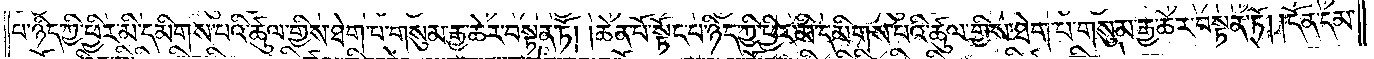པ་ཉིད་ཀྱི་ཕྱིར་མི་དམིགས་པའི་ཚུལ་གྱིས་ཐེག་པ་གསུམ་རྒྱ་ཆེར་བསྟན་ཏོ། །ཆེན་པོ་སྟོང་པ་ཉིད་ཀྱི་ཕྱིར་མི་དམིགས་པའི་ཚུལ་གྱིས་ཐེག་པ་གསུམ་རྒྱ་ཆེར་བསྟན་ཏོ། །དོན་དམ་
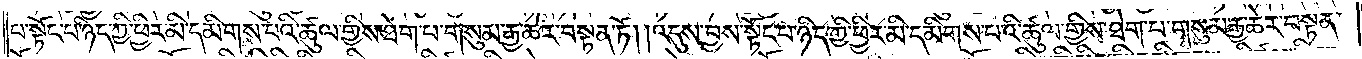པ་སྟོང་པ་ཉིད་ཀྱི་ཕྱིར་མི་དམིགས་པའི་ཚུལ་གྱིས་ཐེག་པ་གསུམ་རྒྱ་ཆེར་བསྟན་ཏོ། །འདུས་བྱས་སྟོང་པ་ཉིད་ཀྱི་ཕྱིར་མི་དམིགས་པའི་ཚུལ་གྱིས་ཐེག་པ་གསུམ་རྒྱ་ཆེར་བསྟན་
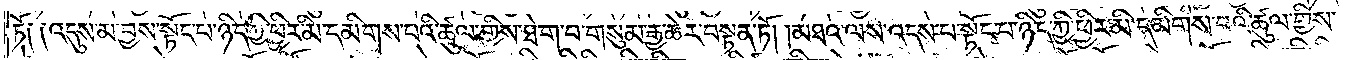ཏོ༑ ༑འདུས་མ་བྱས་སྟོང་པ་ཉིད་ཀྱི་ཕྱིར་མི་དམིགས་པའི་ཚུལ་གྱིས་ཐེག་པ་གསུམ་རྒྱ་ཆེར་བསྟན་ཏོ། །མཐའ་ལས་འདས་པ་སྟོང་པ་ཉིད་ཀྱི་ཕྱིར་མི་དམིགས་པའི་ཚུལ་གྱིས་
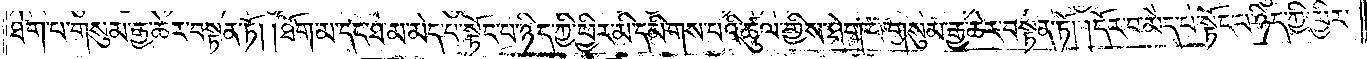ཐེག་པ་གསུམ་རྒྱ་ཆེར་བསྟན་ཏོ། །ཐོག་མ་དང་ཐ་མ་མེད་པ་སྟོང་པ་ཉིད་ཀྱི་ཕྱིར་མི་དམིགས་པའི་ཚུལ་གྱིས་ཐེག་པ་གསུམ་རྒྱ་ཆེར་བསྟན་ཏོ། །དོར་བ་མེད་པ་སྟོང་པ་ཉིད་ཀྱི་ཕྱིར་
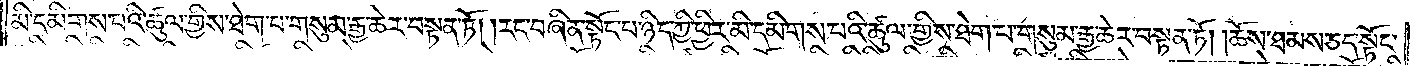མི་དམིགས་པའི་ཚུལ་གྱིས་ཐེག་པ་གསུམ་རྒྱ་ཆེར་བསྟན་ཏོ། །རང་བཞིན་སྟོང་པ་ཉིད་ཀྱི་ཕྱིར་མི་དམིགས་པའི་ཚུལ་གྱིས་ཐེག་པ་གསུམ་རྒྱ་ཆེར་བསྟན་ཏོ། །ཆོས་ཐམས་ཅད་སྟོང་
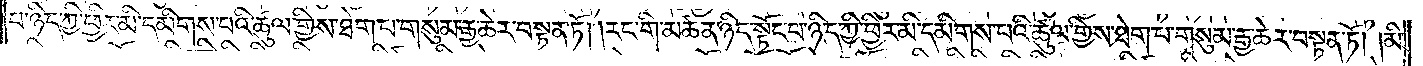པ་ཉིད་ཀྱི་ཕྱིར་མི་དམིགས་པའི་ཚུལ་གྱིས་ཐེག་པ་གསུམ་རྒྱ་ཆེར་བསྟན་ཏོ། །རང་གི་མཚན་ཉིད་སྟོང་པ་ཉིད་ཀྱི་ཕྱིར་མི་དམིགས་པའི་ཚུལ་གྱིས་ཐེག་པ་གསུམ་རྒྱ་ཆེར་བསྟན་ཏོ། །མི་
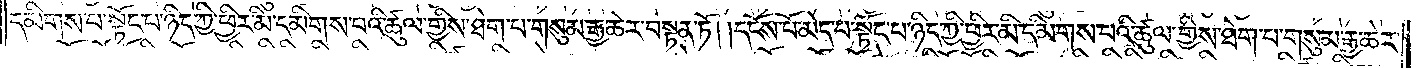དམིགས་པ་སྟོང་པ་ཉིད་ཀྱི་ཕྱིར་མི་དམིགས་པའི་ཚུལ་གྱིས་ཐེག་པ་གསུམ་རྒྱ་ཆེར་བསྟན་ཏོ། །དངོས་པོ་མེད་པ་སྟོང་པ་ཉིད་ཀྱི་ཕྱིར་མི་དམིགས་པའི་ཚུལ་གྱིས་ཐེག་པ་གསུམ་རྒྱ་ཆེར་
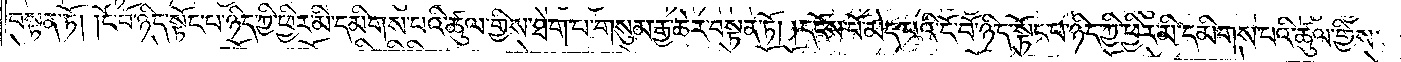བསྟན་ཏོ། །ངོ་བོ་ཉིད་སྟོང་པ་ཉིད་ཀྱི་ཕྱིར་མི་དམིགས་པའི་ཚུལ་གྱིས་ཐེག་པ་གསུམ་རྒྱ་ཆེར་བསྟན་ཏོ། །དངོས་པོ་མེད་པའི་ངོ་བོ་ཉིད་སྟོང་པ་ཉིད་ཀྱི་ཕྱིར་མི་དམིགས་པའི་ཚུལ་གྱིས་
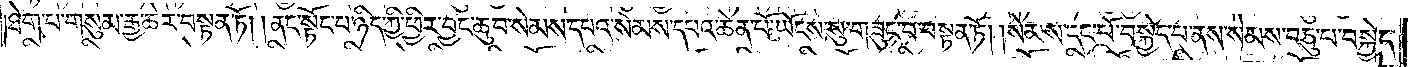ཐེག་པ་གསུམ་རྒྱ་ཆེར་བསྟན་ཏོ། །ནང་སྟོང་པ་ཉིད་ཀྱི་ཕྱིར་བྱང་ཆུབ་སེམས་དཔའ་སེམས་དཔའ་ཆེན་པོ་ཡོངས་སུ་བཟུང་བ་བསྟན་ཏོ། །སེམས་དང་པོ་བསྐྱེད་པ་ནས་སེམས་བཅུ་པ་བསྐྱེད་
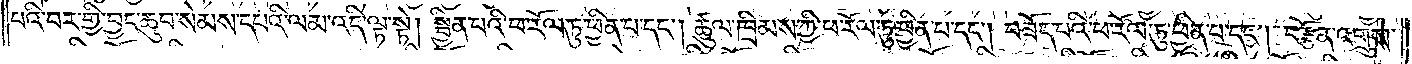པའི་བར་གྱི་བྱང་ཆུབ་སེམས་དཔའི་ལམ་འདི་ལྟ་སྟེ། སྦྱིན་པའི་ཕ་རོལ་ཏུ་ཕྱིན་པ་དང༌། ཚུལ་ཁྲིམས་ཀྱི་ཕ་རོལ་ཏུ་ཕྱིན་པ་དང༌། བཟོད་པའི་ཕ་རོལ་ཏུ་ཕྱིན་པ་དང༌། བརྩོན་འགྲུས་
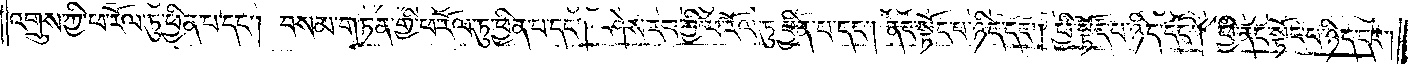འགྲུས་ཀྱི་ཕ་རོལ་ཏུ་ཕྱིན་པ་དང༌། བསམ་གཏན་གྱི་ཕ་རོལ་ཏུ་ཕྱིན་པ་དང༌། ཤེས་རབ་ཀྱི་ཕ་རོལ་ཏུ་ཕྱིན་པ་དང༌། ནང་སྟོང་པ་ཉིད་དང༌། ཕྱི་སྟོང་པ་ཉིད་དང༌། ཕྱི་ནང་སྟོང་པ་ཉིད་དང༌།
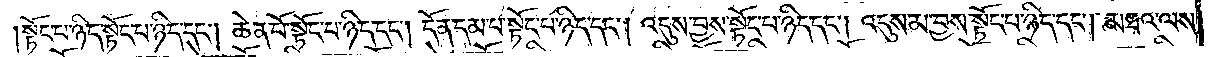སྟོང་པ་ཉིད་སྟོང་པ་ཉིད་དང༌། ཆེན་པོ་སྟོང་པ་ཉིད་དང༌། དོན་དམ་པ་སྟོང་པ་ཉིད་དང༌། འདུས་བྱས་སྟོང་པ་ཉིད་དང༌། འདུས་མ་བྱས་སྟོང་པ་ཉིད་དང༌། མཐའ་ལས་
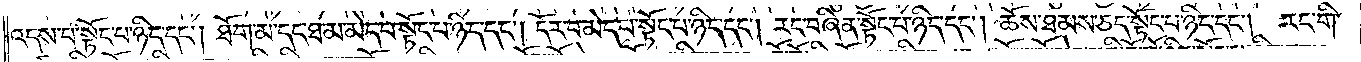འདས་པ་སྟོང་པ་ཉིད་དང༌། ཐོག་མ་དང་ཐ་མ་མེད་པ་སྟོང་པ་ཉིད་དང༌། དོར་བ་མེད་པ་སྟོང་པ་ཉིད་དང༌། རང་བཞིན་སྟོང་པ་ཉིད་དང༌། ཆོས་ཐམས་ཅད་སྟོང་པ་ཉིད་དང༌། རང་གི་
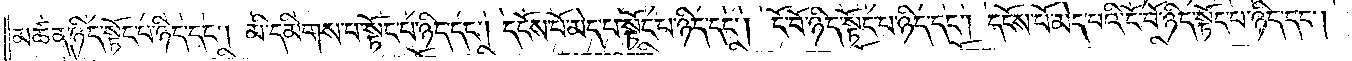མཚན་ཉིད་སྟོང་པ་ཉིད་དང༌། མི་དམིགས་པ་སྟོང་པ་ཉིད་དང༌། དངོས་པོ་མེད་པ་སྟོང་པ་ཉིད་དང༌། ངོ་བོ་ཉིད་སྟོང་པ་ཉིད་དང༌། དངོས་པོ་མེད་པའི་ངོ་བོ་ཉིད་སྟོང་པ་ཉིད་དང༌།
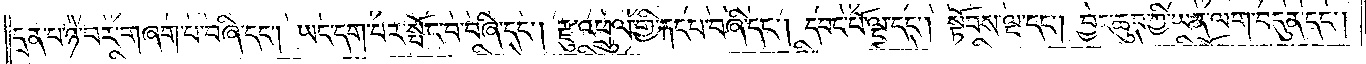དྲན་པ་ཉེ་བར་བཞག་པ་བཞི་དང༌། ཡང་དག་པར་སྤོང་བ་བཞི་དང༌། རྫུ་འཕྲུལ་གྱི་རྐང་པ་བཞི་དང༌། དབང་པོ་ལྔ་དང༌། སྟོབས་ལྔ་དང༌། བྱང་ཆུབ་ཀྱི་ཡན་ལག་བདུན་དང༌།
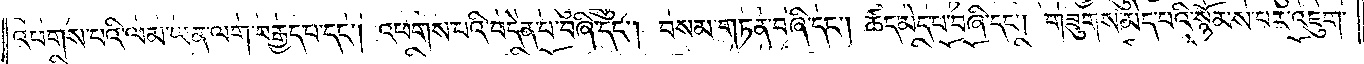འཕགས་པའི་ལམ་ཡན་ལག་བརྒྱད་པ་དང༌། འཕགས་པའི་བདེན་པ་བཞི་དང༌། བསམ་གཏན་བཞི་དང༌། ཚད་མེད་པ་བཞི་དང༌། གཟུགས་མེད་པའི་སྙོམས་པར་འཇུག་
